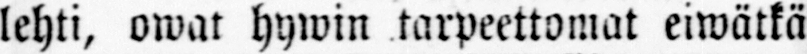lehti, owat hywin tarpeettomat eiwätkä
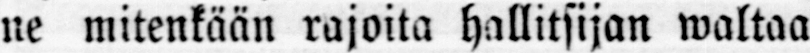ne mitenkään rajoita hallitsijan waltaa
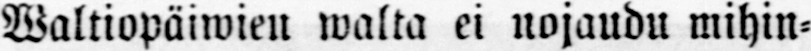Waltiopäiwien walta ei nojaudu mihin-
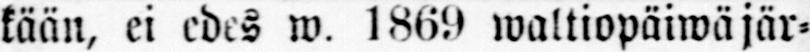kään, ei edes w. 1869 waltiopäiwä jär-
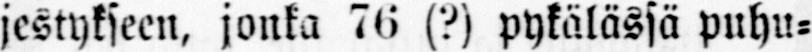jestykseen, jonka 76 (?) pykälässä puhu-
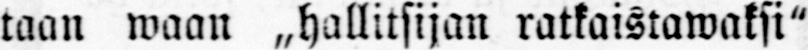taan waan ˶hallitsijan ratkaistawaksi"
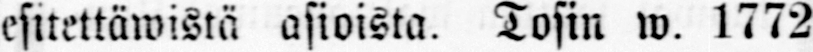esitettäwistä asioista. Tosin w. 1772
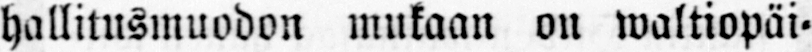hallitusmuodon mukaan on waltiopäi-
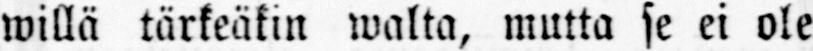willä tärkeäkin walta, mutta se ei ole
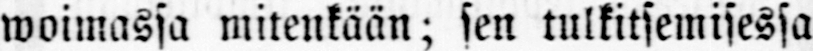woimassa mitenkään; sen tulkitsemisessa
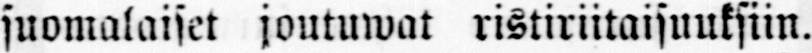suomalaiset joutuwat ristiriitaisuuksiin.
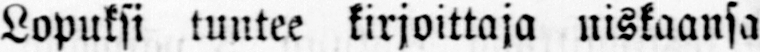Lopuksi tuntee kirjoittaja niskaansa
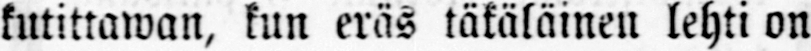kutittawan, kun eräs täkäläinen lehti on
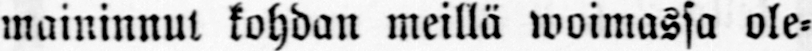maininnut kohdan meillä woimassa ole-
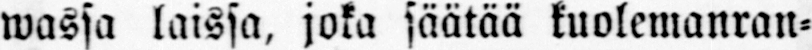wassa laissa, joka säätää kuolemanran-
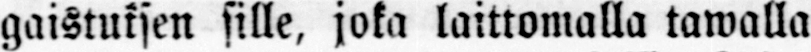gaistuksen sille, joka laittomalla tawalla
